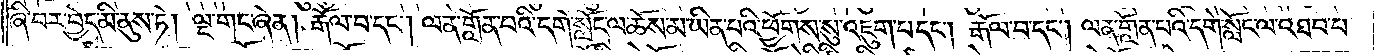ཞི་བར་བྱེད་མི་ནུས་ཏེ། ལྔ་གང་ཞེན། རྒོལ་བ་དང༌། ལན་གློན་པའི་དགེ་སློང་ལ་ཆོས་མ་ཡིན་པའི་ཕྱོགས་སུ་འཇུག་པ་དང༌། རྒོལ་བ་དང༌། ལན་གློན་པའི་དགེ་སློང་ལ་འཐབ་པ་
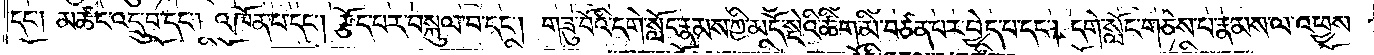དང༌། མཚང་འདྲུ་བ་དང༌། འཁོན་པ་དང༌། རྩོད་པར་བསྐུལ་བ་དང༌། གཟུ་བོའི་དགེ་སློང་རྣམས་ཀྱིས་མདོ་སྡེའི་ཚིག་མི་བཙན་པར་བྱེད་པ་དང༌། དགེ་སློང་གཅེས་པ་རྣམས་ལ་འཕྱས་
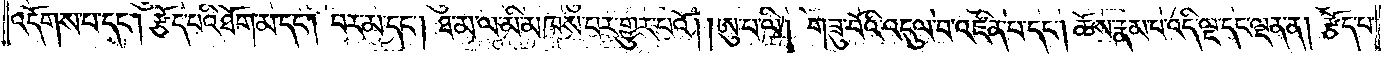འདོགས་པ་དང༌། རྩོད་པའི་ཐོག་མ་དང༌། བར་མ་དང༌། ཐ་མ་ལ་མི་མཁས་པར་གྱུར་པའོ། །ཨུ་པ་ལི། གཟུ་བོའི་འདུལ་བ་འཛིན་པ་དང༌། ཆོས་རྣམ་པ་འདི་ལྔ་དང་ལྡན་ན། རྩོད་པ་
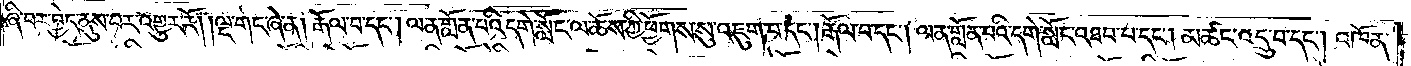ཞི་བར་བྱེད་ནུས་པར་འགྱུར་རོ། །ལྔ་གང་ཞེ་ན། རྒོལ་བ་དང༌། ལན་གློན་པའི་དགེ་སློང་ལ་ཆོས་ཀྱི་ཕྱོགས་སུ་འཇུག་པ་དང༌། རྒོལ་བ་དང༌། ལན་གློན་པའི་དགེ་སློང་འཐབ་པ་དང༌། མཚང་འདྲུ་བ་དང༌། འཁོན་
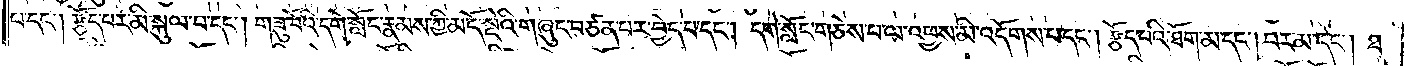པ་དང༌། རྩོད་པར་མི་སྐུལ་བ་དང༌། གཟུ་བོའི་དགེ་སློང་རྣམས་ཀྱི་མདོ་སྡེའི་གཞུང་བཙན་པར་བྱེད་པ་དང༌། དགེ་སློང་གཅེས་པ་ལ་འཕྱས་མི་འདོགས་པ་དང༌། རྩོད་པའི་ཐོག་མ་དང༌། བར་མ་དང༌། ཐ་
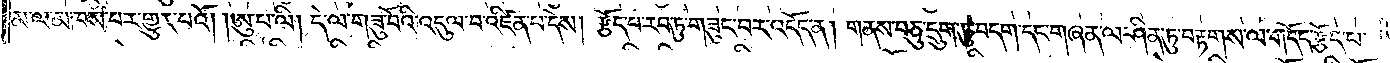མ་ལ་མཁས་པར་གྱུར་པའོ། །ཨུ་པ་ལི། དེ་ལ་གཟུ་བོའི་འདུལ་བ་འཛིན་པ་དེས། རྩོད་པ་རབ་ཏུ་གཟུང་བར་འདོད་ན། གནས་བཅུ་དྲུག་ཏུ་བདག་དང་གཞན་ལ་ཤིན་ཏུ་བརྟགས་ལ་གདོད་རྩོད་པ་
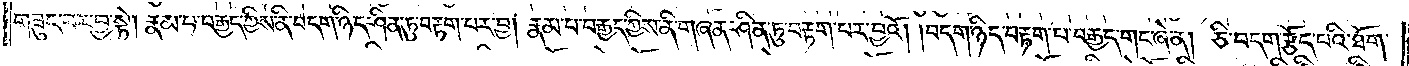གཟུང་བར་བྱ་སྟེ། རྣམ་པ་བརྒྱད་ཀྱིས་ནི་བདག་ཉིད་ཤིན་ཏུ་བརྟག་པར་བྱ། རྣམ་པ་བརྒྱད་ཀྱིས་ནི་གཞན་ཤིན་ཏུ་བརྟག་པར་བྱའོ། །བདག་ཉིད་བརྟག་པ་བརྒྱད་གང་ཞེ་ན། ཅི་བདག་རྩོད་པའི་ཐོག་
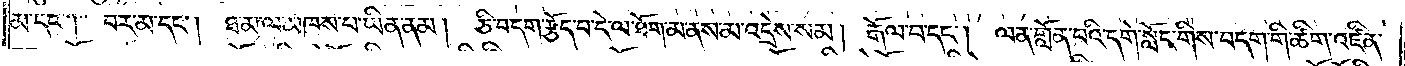མ་དང༌། བར་མ་དང༌། ཐ་མ་ལ་མཁས་པ་ཡིན་ནམ། ཅི་བདག་རྩོད་པ་དེ་ལ་ཐོག་མ་ནས་མ་འདྲེས་སམ། རྒོལ་བ་དང༌། ལན་གློན་པའི་དགེ་སློང་གིས་བདག་གི་ཚིག་འཛིན་
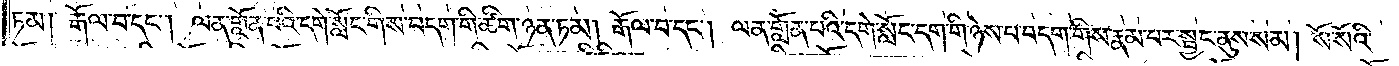ཏམ། རྒོལ་བ་དང༌། ལན་གློན་པའི་དགེ་སློང་གིས་བདག་གི་ཚིག་ཉན་ཏམ། རྒོལ་བ་དང༌། ལན་གློན་པའི་དགེ་སློང་དག་གི་ཉེས་པ་བདག་གིས་རྣམ་པར་སྦྱང་ནུས་སམ། སོ་སོའི་
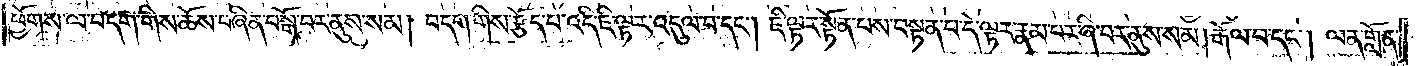ཕྱོགས་ལ་བདག་གིས་ཆོས་བཞིན་བསྒོ་བར་ནུས་སམ། བདག་གིས་རྩོད་པ་འདི་ཇི་ལྟར་འདུལ་བ་དང༌། ཇི་ལྟར་སྟོན་པས་བསྟན་པ་དེ་ལྟར་རྣམ་པར་ཞི་བར་ནུས་སམ། རྒོལ་བ་དང༌། ལན་གློན་
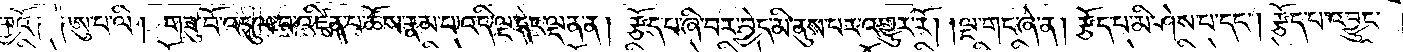བྱའོ། །ཨུ་པ་ལི། གཟུ་བོ་འདུལ་བ་འཛིན་པ་ཆོས་རྣམ་པ་འདི་ལྔ་དང་ལྡན་ན། རྩོད་པ་ཞི་བར་བྱེད་མི་ནུས་པར་འགྱུར་རོ། །ལྔ་གང་ཞེ་ན། རྩོད་པ་མི་ཤེས་པ་དང༌། རྩོད་པ་འབྱུང་
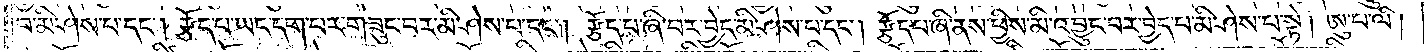བ་མི་ཤེས་པ་དང༌། རྩོད་པ་ཡང་དག་པར་གཟུང་བར་མི་ཤེས་པ་དང༌། རྩོད་པ་ཞི་བར་བྱེད་མི་ཤེས་པ་དང༌། རྩོད་པ་ཞི་ནས་ཕྱིས་མི་འབྱུང་བར་བྱེད་པ་མི་ཤེས་པ་སྟེ། ཨུ་པ་ལི།
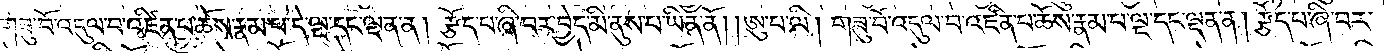གཟུ་བོ་འདུལ་བ་འཛིན་པ་ཆོས་རྣམ་པ་དེ་ལྔ་དང་ལྡན་ན། རྩོད་པ་ཞི་བར་བྱེད་མི་ནུས་པ་ཡིན་ནོ། །ཨུ་པ་ལི། གཟུ་བོ་འདུལ་བ་འཛིན་པ་ཆོས་རྣམ་པ་ལྔ་དང་ལྡན་ན། རྩོད་པ་ཞི་བར་
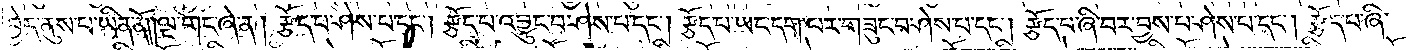བྱེད་ནུས་པ་ཡིན་ནོ། །ལྔ་གང་ཞེ་ན། རྩོད་པ་ཤེས་པ་དང༌། རྩོད་པ་འབྱུང་བ་ཤེས་པ་དང༌། རྩོད་པ་ཡང་དག་པར་གཟུང་བ་ཤེས་པ་དང༌། རྩོད་པ་ཞི་བར་བྱས་པ་ཤེས་པ་དང༌། རྩོད་པ་ཞི་
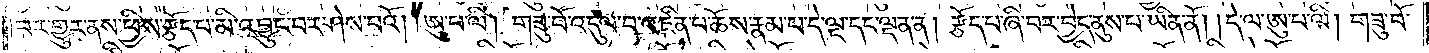བར་གྱུར་ནས་ཕྱིས་རྩོད་པ་མི་འབྱུང་བར་ཤེས་པའོ། །ཨུ་པ་ལི། གཟུ་བོ་འདུལ་བ་འཛིན་པ་ཆོས་རྣམ་པ་དེ་ལྔ་དང་ལྡན་ན། རྩོད་པ་ཞི་བར་བྱེད་ནུས་པ་ཡིན་ནོ། །དེ་ལ་ཨུ་པ་ལི། གཟུ་བོ་
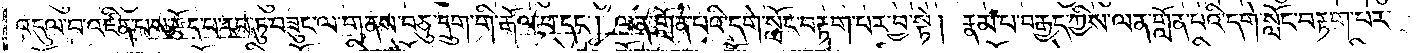འདུལ་བ་འཛིན་པས་རྩོད་པ་རབ་ཏུ་བཟུང་ལ་གནས་བཅུ་དྲུག་གི་རྒོལ་བ་དང༌། ལན་གློན་པའི་དགེ་སློང་བརྟག་པར་བྱ་སྟེ། རྣམ་པ་བརྒྱད་ཀྱིས་ལན་གློན་པའི་དགེ་སློང་བརྟག་པར་
